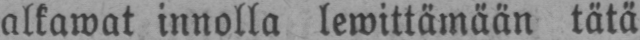alkawat innolla lewittämään tätä
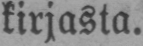kirjasta.
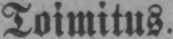Toimitus.
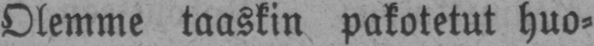Olemme taaskin pakotetut huo-
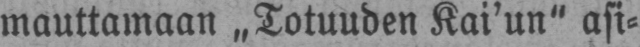mauttamaan „Totuuden Kai'un" asi-
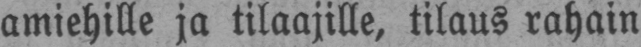amiehille ja tilaajille, tilaus rahain
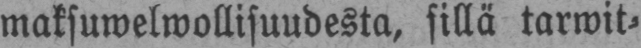maksuwelwollisuudesta, sillä tarwit-
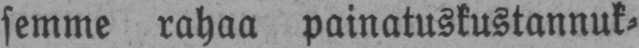semme rahaa painatuskustannuk-
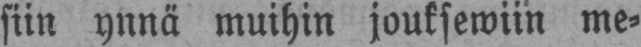siin ynnä muihin jouksewiin me-
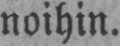noihin.
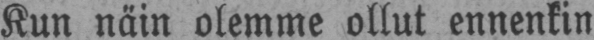Kun näin olemme ollut ennenkin
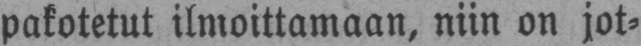pakotetut ilmoittamaan, niin on jot-
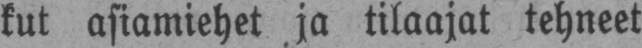kut asiamiehet ja tilaajat tehneet
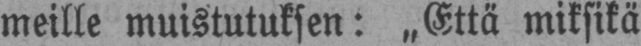meille muistutuksen: „Että miksikä
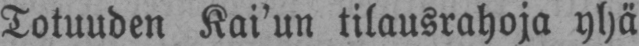Totuuden Kai'un tilausrahoja yhä
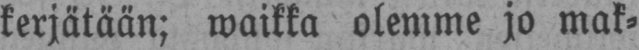kerjätään; waikka olemme jo mak-
